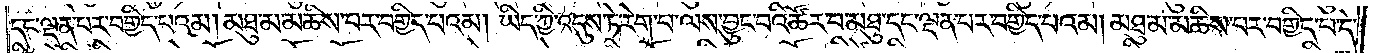དང་ལྡན་པར་བགྱིད་པའམ། མཐུ་མ་མཆིས་པར་བགྱིད་པའམ། ཡིད་ཀྱི་འདུས་ཏེ་རེག་པ་ལས་བྱུང་བའི་ཚོར་བ་མཐུ་དང་ལྡན་པར་བགྱིད་པའམ། མཐུ་མ་མཆིས་པར་བགྱིད་པ་དེ་
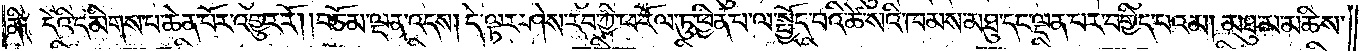ནི༑ དེའི་དམིགས་པ་ཆེན་པོར་འགྱུར་རོ། །བཅོམ་ལྡན་འདས། དེ་ལྟར་ཤེས་རབ་ཀྱི་ཕ་རོལ་ཏུ་ཕྱིན་པ་ལ་སྤྱོད་པའི་ཚེ་སའི་ཁམས་མཐུ་དང་ལྡན་པར་བགྱིད་པའམ། མཐུ་མ་མཆིས་
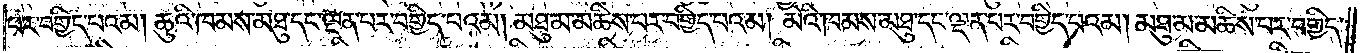པར་བགྱིད་པའམ། ཆུའི་ཁམས་མཐུ་དང་ལྡན་པར་བགྱིད་པའམ། མཐུ་མ་མཆིས་པར་བགྱིད་པའམ། མེའི་ཁམས་མཐུ་དང་ལྡན་པར་བགྱིད་པའམ། མཐུ་མ་མཆིས་པར་བགྱིད་
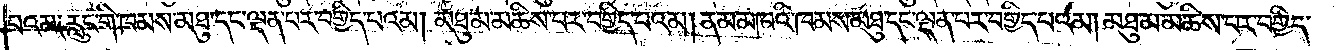པའམ༑ རླུང་གི་ཁམས་མཐུ་དང་ལྡན་པར་བགྱིད་པའམ། མཐུ་མ་མཆིས་པར་བགྱིད་པའམ། ནམ་མཁའི་ཁམས་མཐུ་དང་ལྡན་པར་བགྱིད་པའམ། མཐུ་མ་མཆིས་པར་བགྱིད་
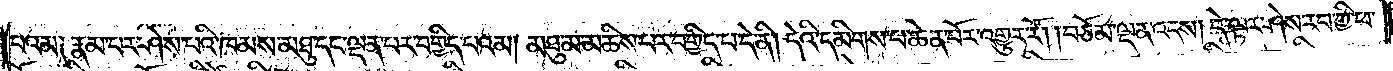པའམ༑ རྣམ་པར་ཤེས་པའི་ཁམས་མཐུ་དང་ལྡན་པར་བགྱིད་པའམ། མཐུ་མ་མཆིས་པར་བགྱིད་པ་དེ་ནི། དེའི་དམིགས་པ་ཆེན་པོར་འགྱུར་རོ། །བཅོམ་ལྡན་འདས། དེ་ལྟར་ཤེས་རབ་ཀྱི་ཕ་
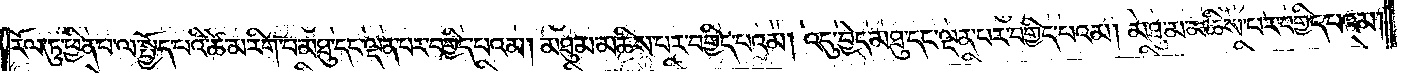རོལ་ཏུ་ཕྱིན་པ་ལ་སྤྱོད་པའི་ཚེ་མ་རིག་པ་མཐུ་དང་ལྡན་པར་བགྱིད་པའམ། མཐུ་མ་མཆིས་པར་བགྱིད་པའམ། འདུ་བྱེད་མཐུ་དང་ལྡན་པར་བགྱིད་པའམ། མཐུ་མ་མཆིས་པར་བགྱིད་པའམ།
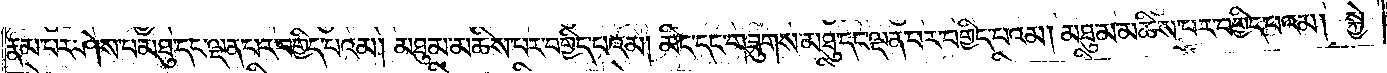རྣམ་པར་ཤེས་པ་མཐུ་དང་ལྡན་པར་བགྱིད་པའམ། མཐུ་མ་མཆིས་པར་བགྱིད་པའམ། མིང་དང་གཟུགས་མཐུ་དང་ལྡན་པར་བགྱིད་པའམ། མཐུ་མ་མཆིས་པར་བགྱིད་པའམ། སྐྱེ་
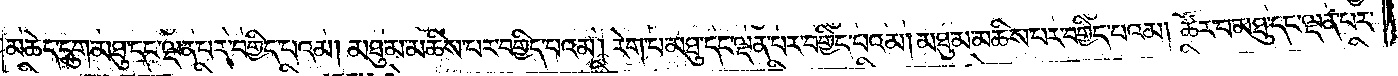མཆེད་དྲུག་མཐུ་དང་ལྡན་པར་བགྱིད་པའམ། མཐུ་མ་མཆིས་པར་བགྱིད་པའམ། རེག་པ་མཐུ་དང་ལྡན་པར་བགྱིད་པའམ། མཐུ་མ་མཆིས་པར་བགྱིད་པའམ། ཚོར་བ་མཐུ་དང་ལྡན་པར་
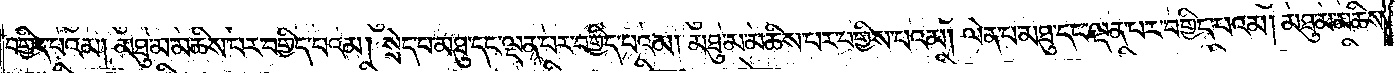བགྱིད་པའམ། མཐུ་མ་མཆིས་པར་བགྱིད་པའམ། སྲེད་པ་མཐུ་དང་ལྡན་པར་བགྱིད་པའམ། མཐུ་མ་མཆིས་པར་བགྱིད་པའམ། ལེན་པ་མཐུ་དང་ལྡན་པར་བགྱིད་པའམ། མཐུ་མ་མཆིས་
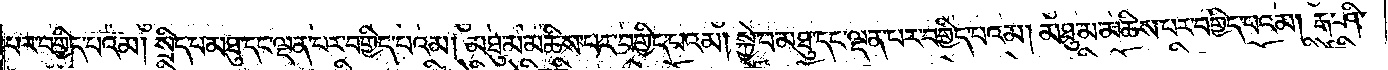པར་བགྱིད་པའམ། སྲིད་པ་མཐུ་དང་ལྡན་པར་བགྱིད་པའམ། མཐུ་མ་མཆིས་པར་བགྱིད་པའམ། སྐྱེ་བ་མཐུ་དང་ལྡན་པར་བགྱིད་པའམ། མཐུ་མ་མཆིས་པར་བགྱིད་པའམ། རྒ་ཤི་
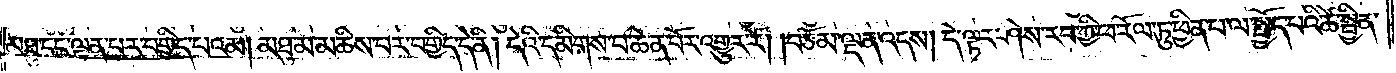མཐུ་དང་ལྡན་པར་བགྱིད་པའམ། མཐུ་མ་མཆིས་པར་བགྱིད་པ་དེ་ནི། དེའི་དམིགས་པ་ཆེན་པོར་འགྱུར་རོ། །བཅོམ་ལྡན་འདས། དེ་ལྟར་ཤེས་རབ་ཀྱི་ཕ་རོལ་ཏུ་ཕྱིན་པ་ལ་སྤྱོད་པའི་ཚེ་སྦྱིན་
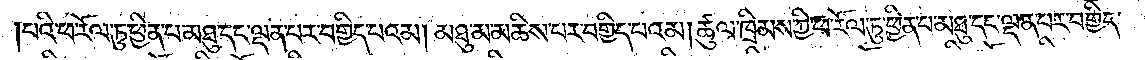པའི་ཕ་རོལ་ཏུ་ཕྱིན་པ་མཐུ་དང་ལྡན་པར་བགྱིད་པའམ། མཐུ་མ་མཆིས་པར་བགྱིད་པའམ། ཚུལ་ཁྲིམས་ཀྱི་ཕ་རོལ་ཏུ་ཕྱིན་པ་མཐུ་དང་ལྡན་པར་བགྱིད་
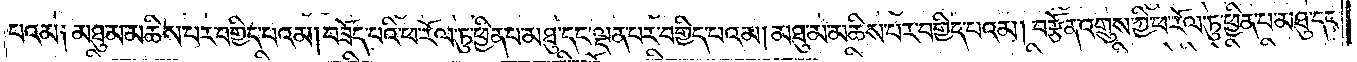པའམ༑ མཐུ་མ་མཆིས་པར་བགྱིད་པའམ། བཟོད་པའི་ཕ་རོལ་ཏུ་ཕྱིན་པ་མཐུ་དང་ལྡན་པར་བགྱིད་པའམ། མཐུ་མ་མཆིས་པར་བགྱིད་པའམ། བརྩོན་འགྲུས་ཀྱི་ཕ་རོལ་ཏུ་ཕྱིན་པ་མཐུ་དང་
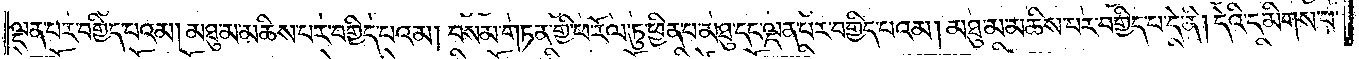ལྡན་པར་བགྱིད་པའམ། མཐུ་མ་མཆིས་པར་བགྱིད་པའམ། བསམ་གཏན་གྱི་ཕ་རོལ་ཏུ་ཕྱིན་པ་མཐུ་དང་ལྡན་པར་བགྱིད་པའམ། མཐུ་མ་མཆིས་པར་བགྱིད་པ་དེ་ནི། དེའི་དམིགས་པ་
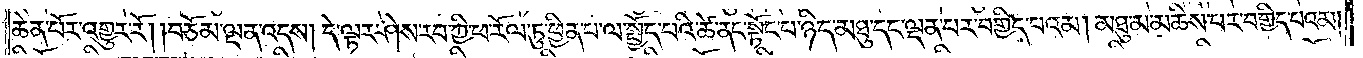ཆེན་པོར་འགྱུར་རོ། །བཅོམ་ལྡན་འདས། དེ་ལྟར་ཤེས་རབ་ཀྱི་ཕ་རོལ་ཏུ་ཕྱིན་པ་ལ་སྤྱོད་པའི་ཚེ་ནང་སྟོང་པ་ཉིད་མཐུ་དང་ལྡན་པར་བགྱིད་པའམ། མཐུ་མ་མཆིས་པར་བགྱིད་པའམ།
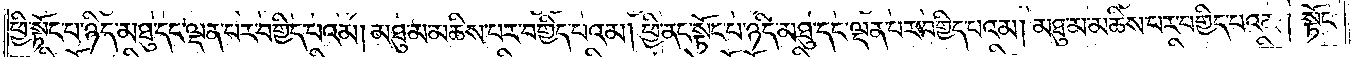ཕྱི་སྟོང་པ་ཉིད་མཐུ་དང་ལྡན་པར་བགྱིད་པའམ། མཐུ་མ་མཆིས་པར་བགྱིད་པའམ། ཕྱི་ནང་སྟོང་པ་ཉིད་མཐུ་དང་ལྡན་པར་བགྱིད་པའམ། མཐུ་མ་མཆིས་པར་བགྱིད་པའམ། སྟོང་
